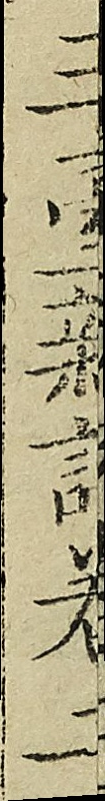玉臺新詠卷二
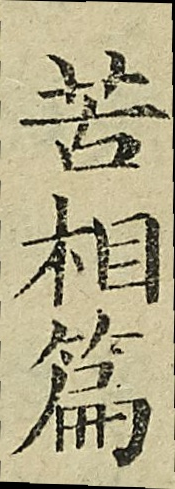苦相篇
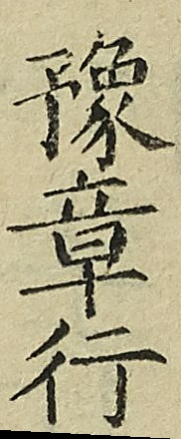豫章行
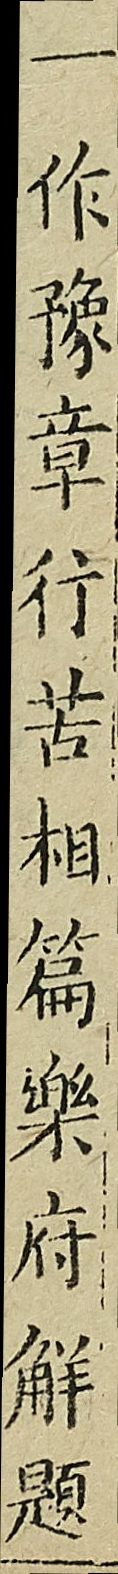一作豫章行苦相篇樂府觧題
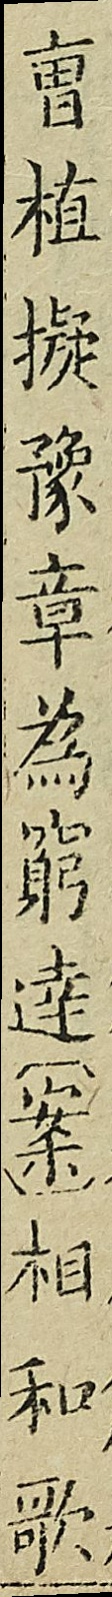曹植擬豫章為窮達（案）相和歌
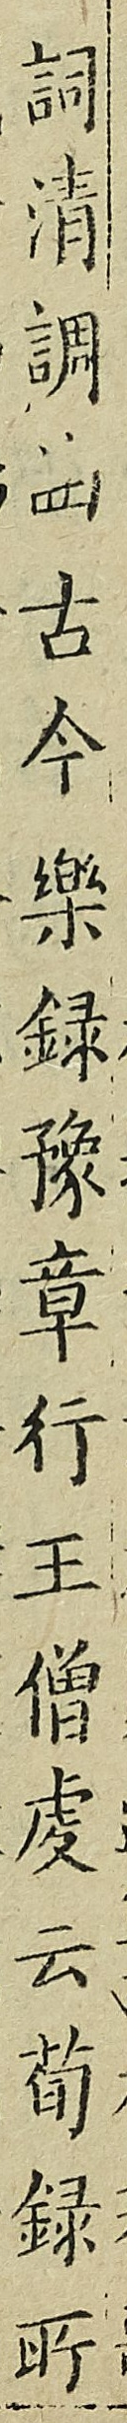詞清調曲古今樂錄豫章行王僧虔云荀錄所
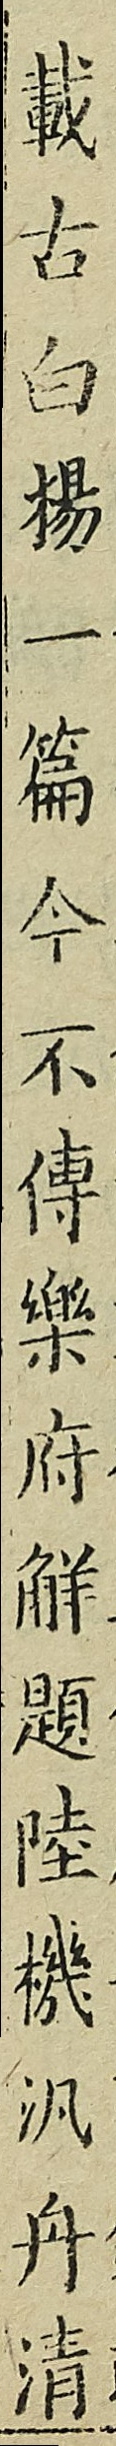載古白楊一篇今不傳樂府解題陸機汎舟清
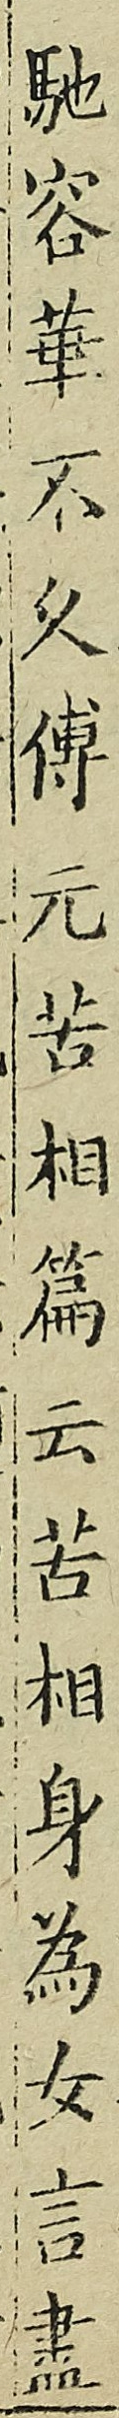馳容華不久傅元苦相篇云苦相身為女言盡
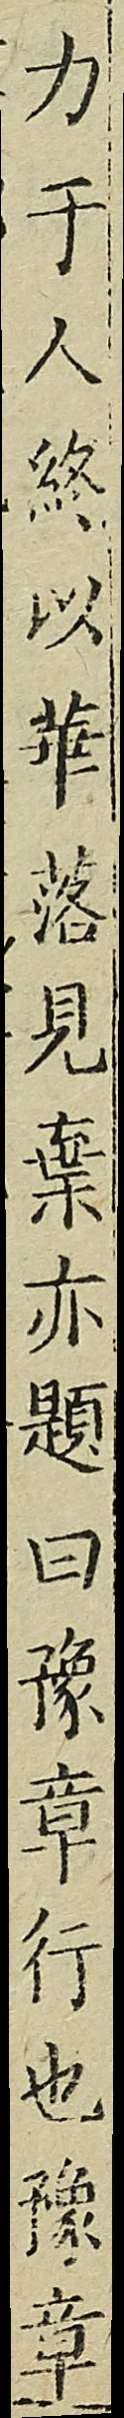力于人終以華落見棄亦題曰豫章行也豫章
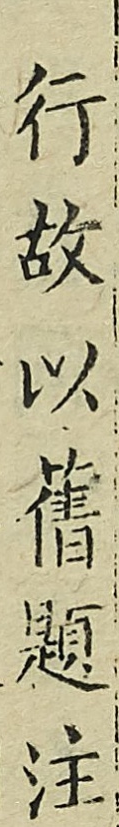行故以蒨題注
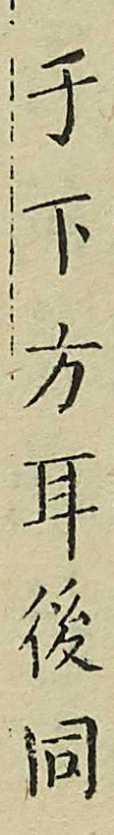子下方耳後同
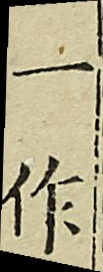一作
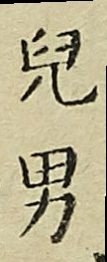兒男
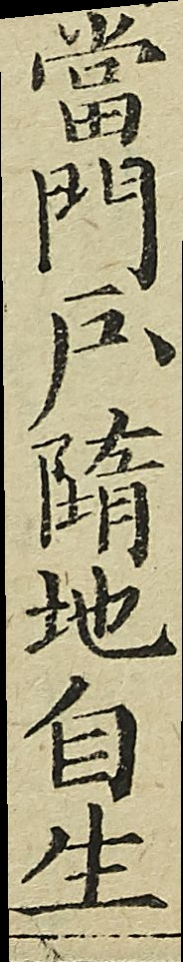當門戶墮地自生
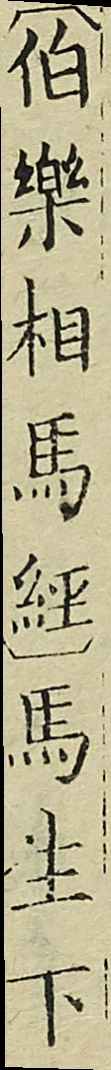（伯樂相馬經）馬生下
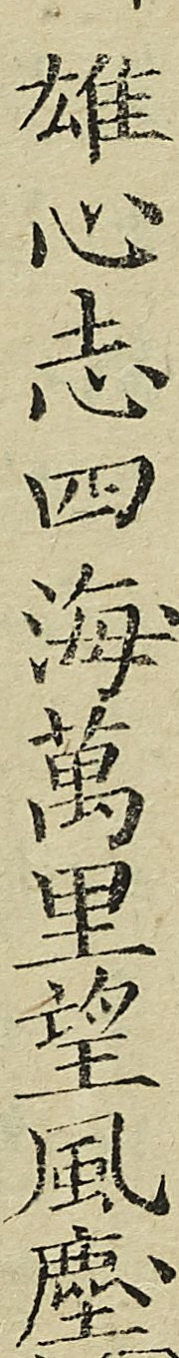雄心志四海萬里望風塵
